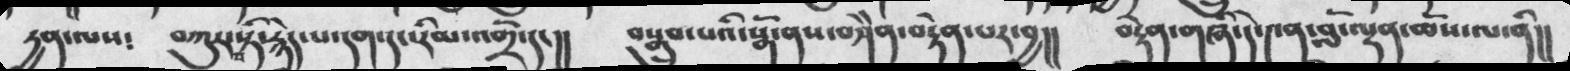དྱན་ལས༴  བཀུར་བསྟི་རྙེད་པ་དག་དང་རིམ་འགྲོ་དང།།  བསྒྲུབ་པའི་སྒོ་ནས་བཤེེན་བརྟེན་པར་བྱ།།  བརྟེན་གཞི་དེ་༤ན་བློ་ལྷན་ཆོས་ལ་ནི།།
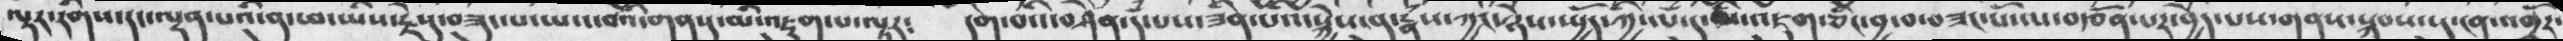ལྟར་རིགས་དང་ལྡན་པའི་བུ་ཕ་ཡིས་རྗེསུ་བཟུང་པ་ཡང་བའི་གནསུ་མི་འཇུག་པ་ལྟར༴  དགེ་བའི་བཤེན་དཾ་པས་ཟིན་པོའི་སྐྱེས་བུ་རྣཾས་ཀྱང་ཉེས་སྤྱོད་ཀྱི་ལཾ་དུ་མི་འཇུག་ཅིང་བྱ་བ་བཟང་པོ་ལ་བརྩོན་པར་བྱེད་པས་གནས་སྐབས་སུ་ངན་འགྲོར་
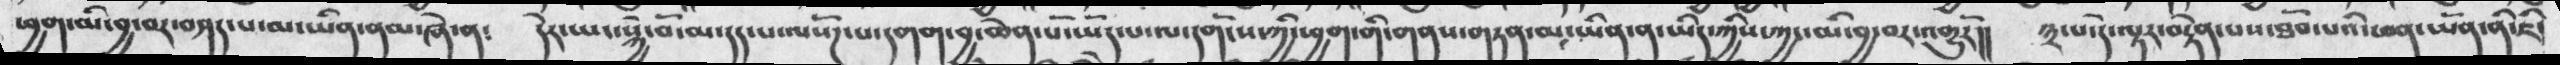ཕྱག་མི་བྱ་བར་བཤད་པ་མ་ཡིན་ནམ་ཞེ་ན༴  དེར་ཡང་སྐྱེ་བོ་མ་དད་པ་ལསོཌ་པ་དགག་བྱ་ཆེན་པོ་ཡོད་པ་ལ་དགོངས་ཀྱི་ཕྱག་གི་གནས་གཏན་མ་ཡིན་ན་ཡིད་ཀྱིས་ཀྱང་མི་བྱ་བར་འགྱུརོ།།  ༣་པ་དེ་ལྟར་བརྟེན་པས་ཐོབ་པའི་ཕན་ཡོན་ནི་ཇི་
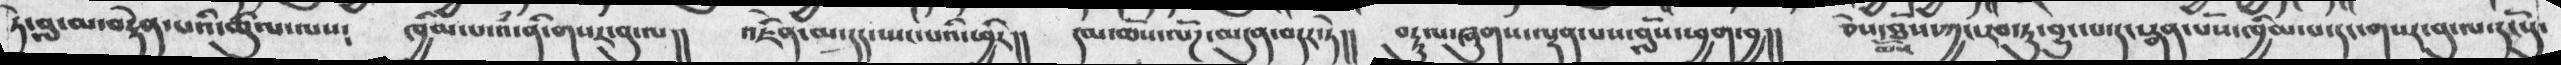ཏེ་བླ་མ་བརྟེན་པའི་ཚུལ་ལས༴  ཁྱིམ་པ་འཾ་ནི་གསར་བུ་ལ།།  འཇིེན་མ་དད་སྤང་པའི་ཕྱིར།།  དམ་ཆོས་ལོཌ་མདུན་བདར་ཏེ།།  བརྟུལ་ཞུགས་ལྡན་པས་བློས་ཕྱག་བྱ།།  ཅེས་ཐོས་ཀྱང་རབ་ཏུ་བྱུང་པ་ད་སྣན་པོས་ཁྱིམ་པ་དང་གསར་བུ་ལ་དངོསུ་
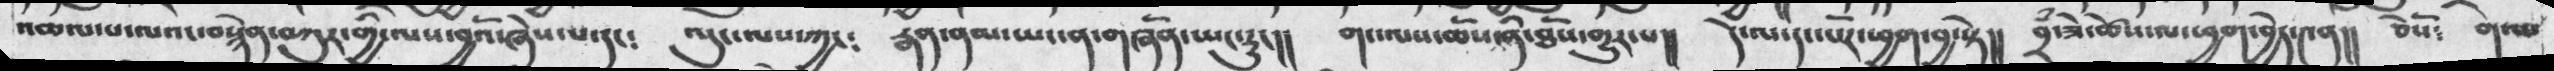འཆལ་པ་ལའང་བསྙེན་བཀུར་གྱི་ལས་བྱའོ་ཞེས་པ་དང་༴  ལུང་ལས་ཀྱང༴   རྒན་ནམ་ཡང་ན་གཞོན་ཡང་རུང།།   གང་ལས་ཆོས་ནི་ཐོས་གྱུར་པ།།   དེ་ལ་དང་པོར་ཕྱག་བྱ་སྟེ།།  བྲཾ་ཟེ་ཚེས་ལ་ཕྱག་བྱེད་༩ན།།   ཅེསོ༴   གེ་ལ
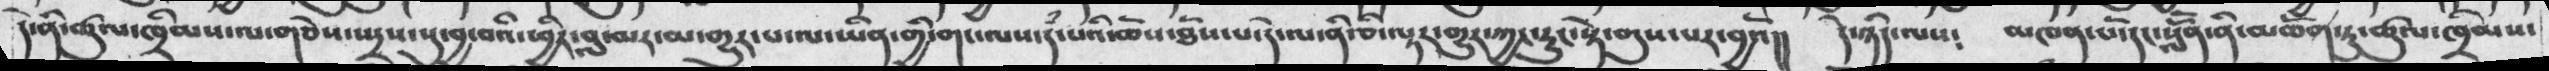དེ་ནི་ཚུལ་ཁྲིམ་པ་ལ་གཅེས་སྤྲས་སུ་བྱ་བའི་ཕྱིར་བླ་མར་མ་གྱུར་པ་ལ་ཡིན་གྱི་གང་ལས་དཾ་པའི་ཆོས་ཐོས་པ་དེ་ལ་ནི་ཅི་ལྟར་གྱུར་ཀྱང་རུང་སྟེ་གུས་པར ་བྱའོ།།   དེ་ཉིད་ལས༴   མཁན་པོ་དང་སློོན་ནི་མཆོག་ཏུ་ཚུལ་ཁྲིམས་
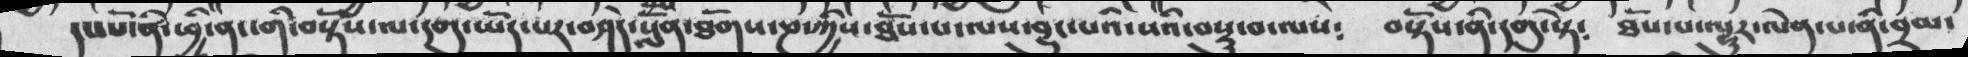དང་པོ་ནི་ཕྱི་ནང་གི་བསྟོས་ལ་དགུ་ཡོད་པར་བཤེད་སློན་ཐོགས་ཎ་ཀྱིས་ཐོས་པ་ལས་བྱུང་པའི་སའི་བསྡུ་བ་ལས༴    བསྟོས་ནི་དགུ་སྟེ༴  ཐོས་པ་ལྷུར་ལེན་པ་ནི་བྲམ་
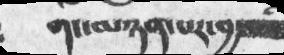གང་མཉན་པར་བྱས་པའི
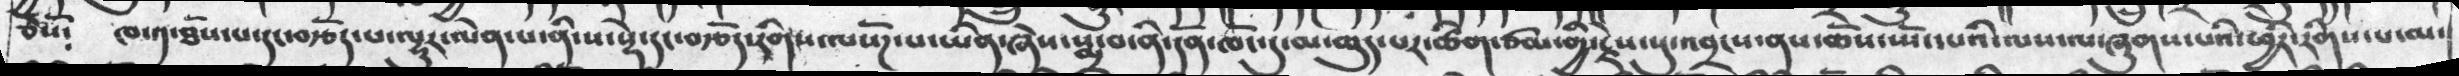ཅེསོ༴  ཁ་༡་ཐོས་པ་དང་བརྩོད་པ་ལྷུར་ལེན་པ་ནི་ས་སྡེ་དང་བརྩོད་རིགས་ལསོཌ་པ་ཡིན་ཞེས་སྨྲ་བ་ནི་དོན་ཁོང་དུ་མ་ཆུད་པར་ཚིག་ཙམ་གྱི་རྗེས་སུ་འབྲངས་ནས་ཆོས་ཡོ་དཔའི་ལས་ལ་ཞུགས་པའི་ཕྱིར་རིགས་པ་མ་
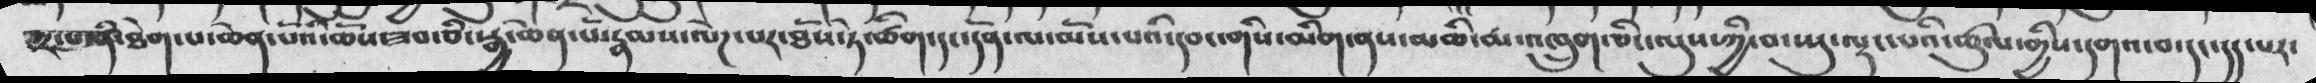༣་པ་ནི་ཐེག་པ་ཆེན་པོའི་ཆོས་ཟབ་ཅིང་སྒྱ་ཆེན་པོ་རྣམས་ལེཌ་པར་ཐོས་ཏེ་ཚིག་དང་དོན་ལ་མོས་པའི་དབང་གིས་མིག་ནས་མཆི་མ་འཁྲུག་ཅིང་ལུས་ཀྱི་བ་སྤུ་ལྡང་པའི་ཚུལ་གྱིས་དགའ་བ་དང་དད་པར་
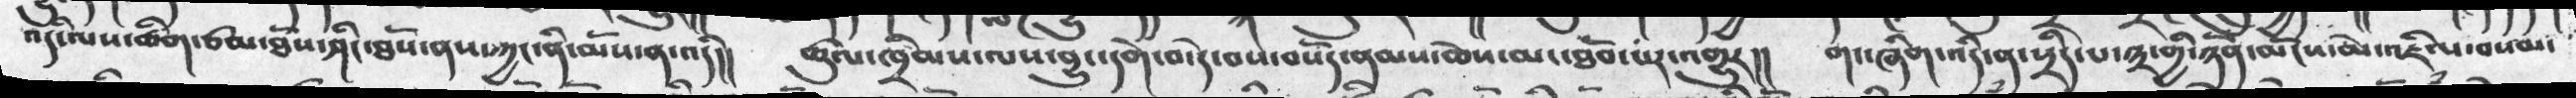འདི་ལས་ཚིག་ཙམ་ཐོས་ཤིང་ཐོས་ནས་ཀྱང་ནི་མོས་ན་འདི།།  ཚུལ་ཁྲིམས་ལས་བྱུང་དགེ་བ་དེ་བས་བསོད་ནམས་ཆེས་མང་ཐོབ་པར་འགྱུར།།  གང་ཞིག་འདི་ན་སྲིད་པ་༣་གྱི་ཉོན་མོངས་མེ་འཇིལ་བསམ་
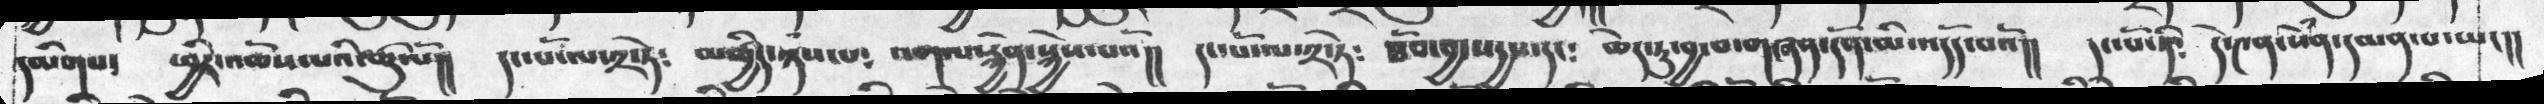དམིགས༴    ཕྱིར་འཆོས་པའི་ཚུལོ།།   དང་པོ་ལ་༢་སྟེ༴   མཚྱིད་ཉིས་པ༴  འགལ་རྐྱེན་སྐྱེས་པའོ།།  དང་པོ་ལ་༢་ཏེ༴   ཐོབ་བྱ་སདྱས་དང༴  ཆེད་ཏུ་བྱ་བ་གཞན་དོན་མི་འདོད་པའོ།།   དང་པོ་ནི༴    དེ་༤ན་སེཾན་དམན་པ་ཡང་།།
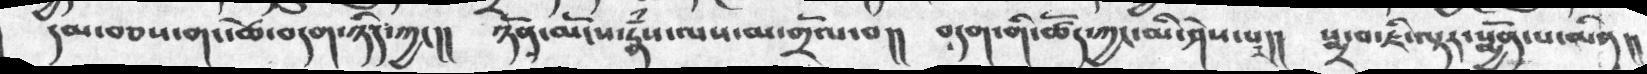དམ་བཅས་གང་ཚེ་བདག་ཉིད་ཀྱང་།།   ཉོན་མྱོངས་རྣཾས་ལས་མ་གྲོལ་བ།།   བདག་གི་ཚོད་ཀྱང་མི་ཤེས་པར།།   སྨྲ་བ་ཇི་ལྟར་སྨྱོན་པ་མིན།།
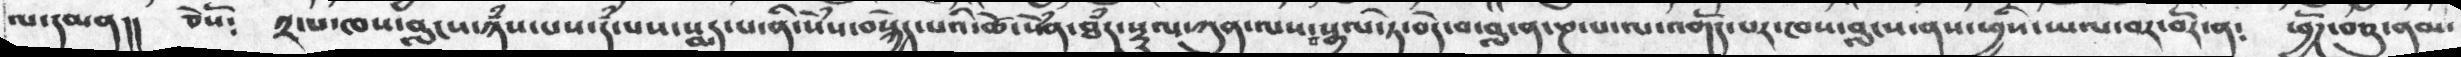ལ་དམན།།   ཅེསོ༴    ༢་པ་ཁས་བླངས་ཉཾས་པས་དཾ་པས་སྨད་པ་ནི་སེཾས་བསྐྱེད་པའི་ཚེ་སེཾན་ཐཾད་སྡུལ་ཀུན་ལས་བསྒྲལ་ཏེ་བདེ་བ་བླ་ན་ཎ་པ་ལ་འགོད་པར་ཁས་བླངས་ནས་ཕྱིས་ཡལ་བར་བོར་ན༴  ཕྱོཌ་བཅུ་ནམ་
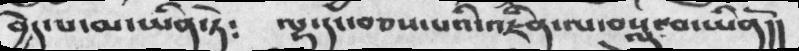བྱེད་པ་མ་ཡིན་ཏེ༴  ལྷ་དང་བཅས་པའི་འཇིན་ལ་བསླུ་བ་ཡིནོ།།
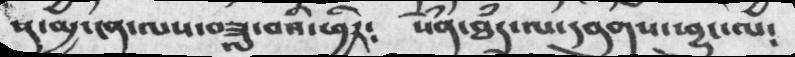་ད་མྱ་ངན་ལས་བཟླ་བའི་ཕྱིར༴  སེཾན་ཐཾད་ལ་དབུགས་ཕྱུང་ལ༴
